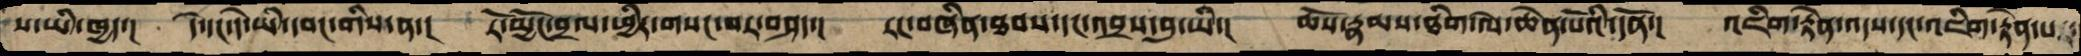ས་ཡི་ཁྱད་།  དེ་དང་དེ་ཡི་དབང་གིས་ན་།  རོ་མྱོང་བྲལ་ཕྱིར་གསང་བར་བཤད་།   རང་བཞིན་ཐབས་དང་འབྲས་བུ་ཡི་།   ཆོས་རྣམས་ཐིག་ལེ་ཆེན་པོའི་དོན་།   འཇིག་རྟེན་འདས་དང་འཇིག་རྟེན་པ་
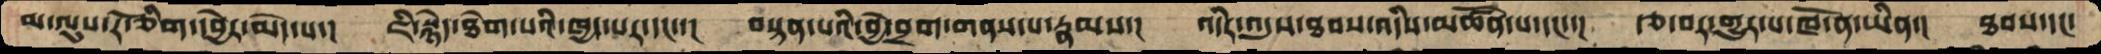མ་ལུས་རོ་ཅིག་དབྱེར་མེད་པ་།  ཇི་སྙེད་ཐེག་པའི་ཁྱད་པར་དང་་།  བསྟན་པའི་བྱེ་བྲག་གནས་པ་རྣམས་།  འདིར་འདུས་ཐབས་འདིས་མཚོན་པ་དང་་།  རྩ་བར་གྱུར་པ་ཁོ་ན་ཡིན་།  ཐབས་དང་
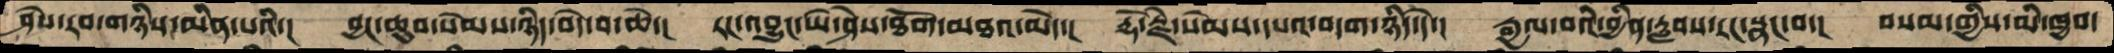ཤེས་རབ་གཉིས་མིན་པའི་།  བྱང་ཆུབ་སེམས་ཉིད་བདེ་བ་ཆེ་།  རང་བྱུང་ཡེ་ཤེས་ཐོག་མཐའ་མེད་།  རྡོ་རྗེ་སེམས་དཔའ་བདག་ཉིད་དེ་།   རྒྱལ་བའི་བྱིན་རླབས་རང་སྣང་བ་།   བསམ་གྱིས་མི་ཁྱབ་
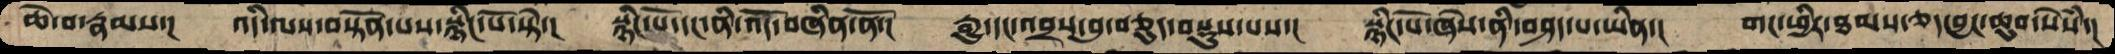ཆེ་བ་རྣམས་།   འདི་ལས་བསྟོན་པས་སྙིང་པོ་སྟེ་།   སྙིང་པོ་དང་ནི་འོད་བཞིན་ནོ་།   རྒྱུ་དང་འབྲས་བུ་བཅུད་བསྡུས་པས་།   སྙིང་པོ་ཞེས་ནི་བཤད་པ་ཡིན་།   གང་ཕྱིར་ཐམས་ཅད་བྱང་ཆུབ་སེསཾ་།
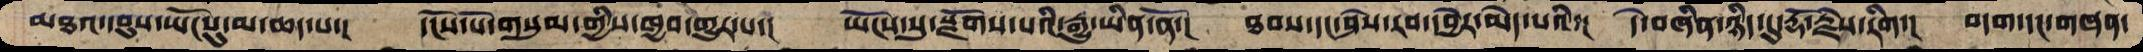མཐའ་དབུས་ཡོངསུ་མ་ཆད་པ་།  དངོས་པོ་གསུམ་གྱིས་ཁྱབ་གྱུར་པ་།  ཡོངས་སུ་སྫོགས་པའི་རྒྱུ་ཡིན་ནོ་།  ཐབས་དང་ཤེས་རབ་དབྱེར་མེད་པའི་།  དེ་བཞིན་ཉིད་དུ་རྡོ་རྗེས་རིག་།  བདག་དང་གཞན་
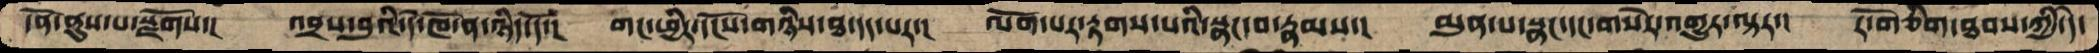དོན་ནུས་པ་སྫོགས་།  འབྲས་བུའི་དེ་ཁོ་ན་ཉིད་དོ་།  གང་ཕྱིར་དངོས་གཉིས་ཐ་དད་པར་།  ལོག་པར་རྟགས་པའི་སྣང་བ་རྣམས་།  མུན་པ་སྣང་དང་གསེར་འགྱུར་ལྟར་།  རོ་གཅིག་ཐབས་ཀྱི་དེ་
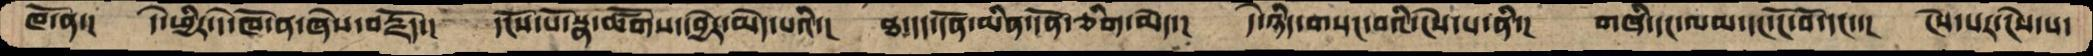ཁོ་ན་།  དེ་ཕྱིར་དེ་ཁོ་ན་ཞེས་བརྗོད་།  དངོས་པོ་སྣ་ཚོགས་དབྱེར་མེད་པའི་།  ཐ་དད་དོན་མིན་དོན་ཅིག་མེད་།  དེ་ཉིད་གསང་བའི་ངེས་པ་ནི་།  གཞི་དང་ལམ་དང་ངོ་བོ་དང་་།  ངེས་པར་ངེས་པ་
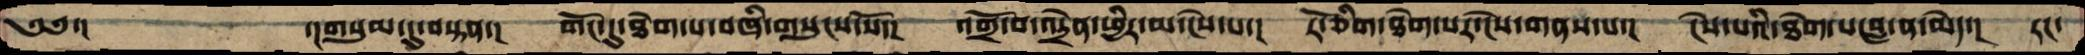༄༅་།    ་།གསུམ་དུ་བསྟན་།  གོང་དུ་ཐེག་པ་བཞི་གསུངས་སོ་།  འགྲོ་བ་འདྲེན་ཕྱིར་མ་ངེས་པ་།  རོ་ཅིག་ཐེག་པར་ངེས་གནས་པ་།  ངེས་པའི་ཐེག་པ་བླ་ན་མེད་།  རང་
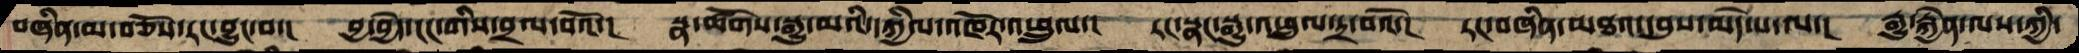བཞིན་མ་བཅོས་རང་བྱུང་བ་།  བྱ་བྱེད་ངང་གིས་བྲལ་བའོ་།  སྣ་ཚོགས་སྒྱུ་མའི་དཀྱིལ་འཁོར་འཕྲུལ་།  རང་སྣང་སྒྱུ་འཕྲུལ་དྲ་བའོ་།  རང་བཞིན་མཐའ་དབུས་མེད་པ་ལ་།  རྒྱུ་རྐྱེན་ལས་ཀྱི་
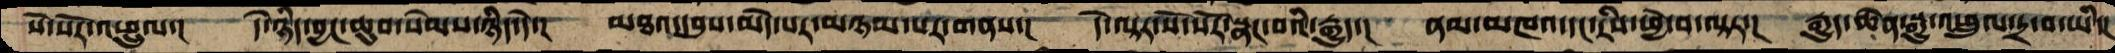སོ་སོར་འཕྲུལ་།  དེ་ཉིད་བྱང་ཆུབ་སེམས་ཉིད་དེ་།  མཐའ་དབུས་མེད་པར་མཉམ་པར་གནས་།  དེ་ལྟར་སོ་སོར་སྣང་བའི་རྒྱུད་།  ནམ་མཁའ་དང་རིས་ཕྱེ་བ་ལྟར་།  རྒྱུད་ཆེན་སྒྱུ་འཕྲུལ་དྲ་བ་ཡི་།
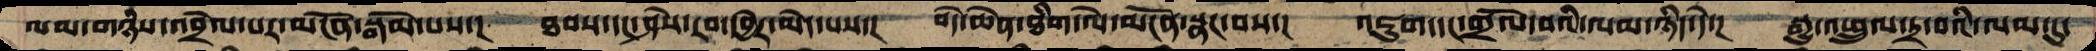ལམ་གཉིས་འབྲེལ་པར་མངོན་སྒོམ་པས་།  ཐབས་དང་ཤེས་རབ་དབྱེར་མེད་པས་།  བདེ་ཆེན་ཐིག་ལེ་མངོན་སྣང་བས་།  འཇུག་དང་གྲོལ་བའི་ལམ་ཉིད་དེ་།  སྒྱུ་འཕྲུལ་དྲ་བའི་ལམ་དུ་
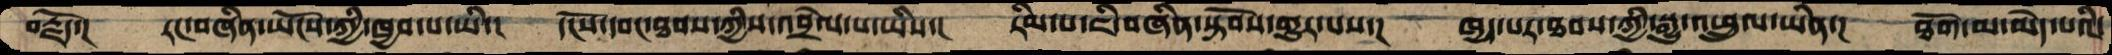བརྗོད་།  རང་བཞིན་ཡོངས་ཀྱི་ཁྱབ་པ་ཡི་།  དངོས་དབང་ཐབས་ཀྱིས་འབྲེལ་པ་ཡིས་།  རིམ་པ་ཇི་བཞིན་སྟོབས་གྱུར་པས་།  ཁྱད་པར་ཐབས་ཀྱི་སྒྱུ་འཕྲུལ་ཡིན་།  ཐོག་མ་མེད་པའི་
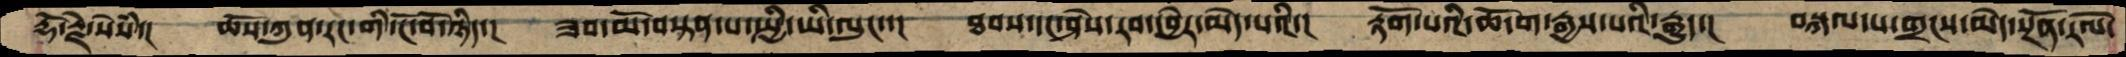རྡོ་རྗེ་སེཾས་།  ཆོས་ཀུན་རང་གི་ངོ་བོ་ཉིད་།  ཟབ་མོ་བསྟན་པ་སྤྱི་ཡི་ལུང་་།  ཐབས་དང་ཤེས་རབ་དབྱེར་མེད་པའི་།  རྟོག་པའི་ཆོ་ག་རྒྱས་པའི་རྒྱུད་།  བསྐལ་པ་གྲངས་མེད་སྔོན་རོལ་
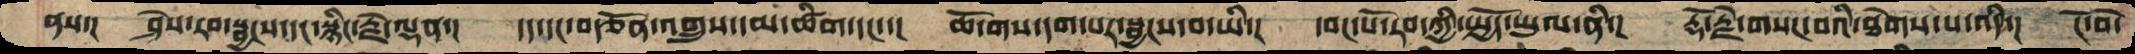ནས་།  ཤེས་རབ་སྦྱངས་དང་སྙིང་རྗེ་ལྡན་།  དད་དང་བརྩོན་འགྲུས་དམ་ཚིག་དང་་།  ཆོ་གས་དག་པར་སྦྱངས་བ་ཡི་།  དབང་པོ་རབ་ཀྱི་སྤྱོད་ཡུལ་ནི་།  རྡོ་རྗེ་གསང་བའི་ཐེགས་པ་འདི་།  ངོ་བོ་
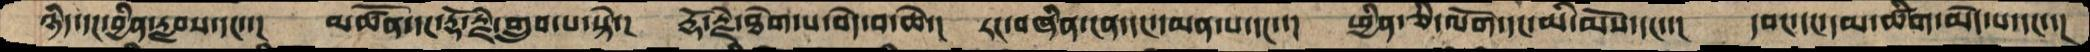ཉིད་དང་བྱིན་རླབས་དང་་།  མཚོན་དང་རྡོ་རྗེ་གྲུབ་པ་སྟེ་།   རྡོ་རྗེ་ཐེག་པ་བདེ་བ་ཆེ་།  རང་བཞིན་ངན་དང་དམན་པ་དང་་།  ཕྱིན་ཅི་ལོག་དང་མི་མོས་དང་་།   དབང་དང་དམ་ཚིག་མེད་པ་དང་་།
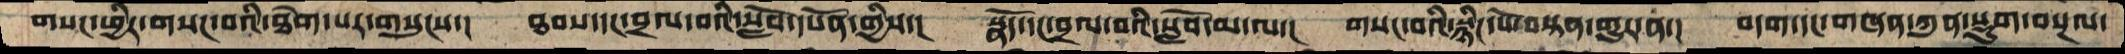གསང་ཕྱིར་གསང་བའི་ཐེག་པར་གསུངས་།  ཐབས་དང་བྲལ་བའི་སློབ་དཔོན་གྱིས་།  སྣོད་དང་བྲལ་བའི་སློབ་མ་ལ་།  གསང་བའི་སྙིང་པོ་བསྟན་གྱུར་ན་།  བདག་དང་གཞན་ཀུན་སྡུག་བསྔལ་
